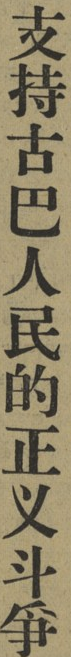支持古巴人民的正义斗爭
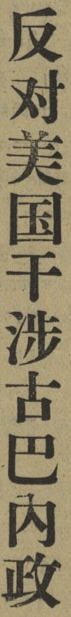反对美国干涉古巴内政
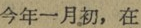今年一月初，在
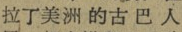拉丁美洲 的古 巴 人
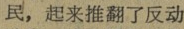民，起来推翻了反动
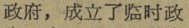政府，成立了临时政
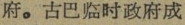府。古巴临时政府成
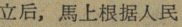立后，馬上根据人民
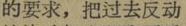的要求，把过去反动
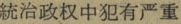統治政权中犯有严重
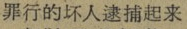罪行的坏人逮捕起来
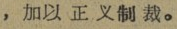，加以 正 义制 裁。
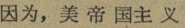因为，美 帝 国主 义
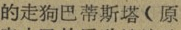的走狗巴蒂斯塔（原
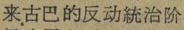来古巴的反动統治阶
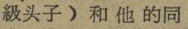級头子）和 他 的同
